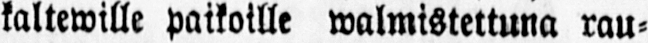kaltewille paikoille walmistettuna rau-
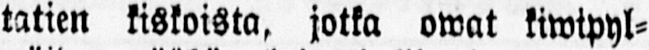tatien kiskoista, jotka owat kiwipyl-
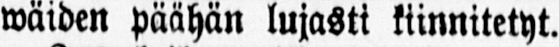wäiden päähän lujasti kiinnitetyt.
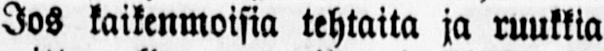Jos kaikenmoisia tehtaita ja ruukkia
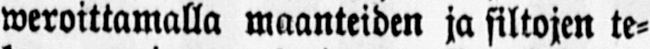weroittamalla maanteiden ja siltojen te-
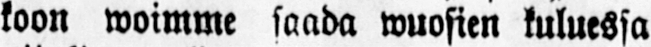koon woimme saada wuosien kuluessa
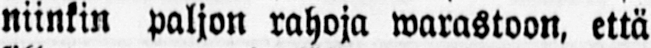niinkin paljon rahoja warastoon, että
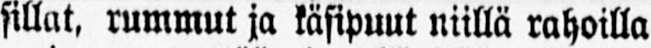sillat, rummut ja käsipuut niillä rahoilla
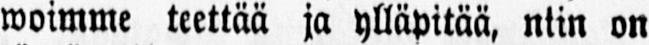woimme teettää ja ylläpitää, niin on
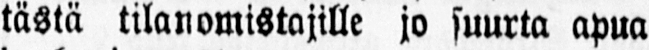tästä tilanomistajille jo suurta apua
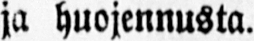ja huojennusta.
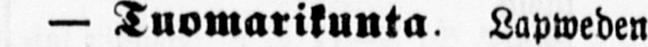— Tuomarikunta. Lapweden
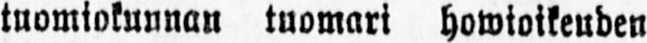tuomiokunnan tuomari howioikeuden
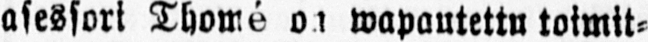asessori Thomé on wapautettu toimit-
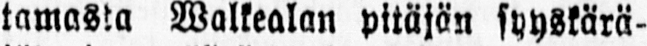tamasta Walkealan pitäjän syyskärä-
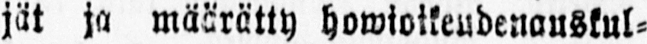jät ja määrätty howioikeudenauskul-
